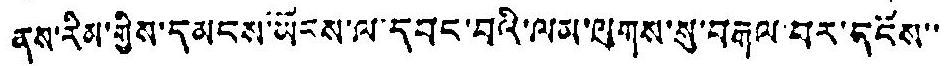ནས་རིམ་གྱིས་དམངས་ཡོངས་ལ་དབང་བའི་ལམ་ལུགས་སུ་བརྒལ་བར་དངོས་་
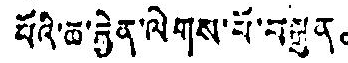པོའི་ཆ་རྐྱེན་ལེགས་པོ་བསྐུན。
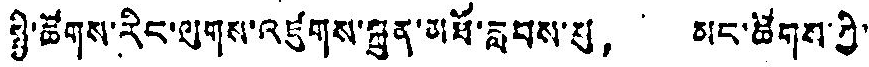སྤྱི་ཚོགས་རིང་ལུགས་འཛུགས་སྐྲུན་མཐོ་རླབས་སུ， མང་ཚོགས་ཀྱི་
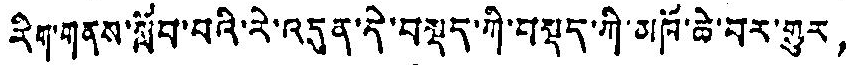རིག་གནས་སློབ་བའི་རེ་འདུན་དེ་བསྡད་ཀི་བསྡད་ཀྱི་མཁོ་ཆེ་བར་གྱུར，
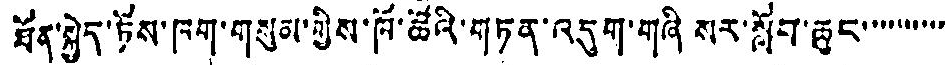ཐོན་སྐྱེད་ཏོས་ཁག་གསུམ་གྱིས་ཁོ་ཚོའི་གཏན་འདུག་གཞི སར་སློབ་ཆུང་་་་་་་་་་་
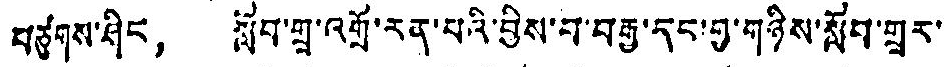བཙུགས་ཤིང， སློབ་གྲྭ་འགྲོ་རན་པའི་བྱིས་བ་བརྒྱ་དང་གྱ་གཉིས་སློབ་གྲྭར་
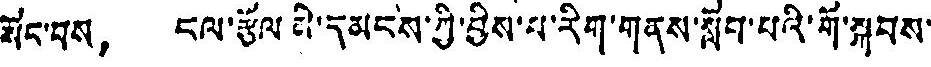སོང་བས， ངལ་རྩོལ མི་དམངས་ཀྱི་བྱིས་པ་རིག་གནས་སློབ་པའི་གོ་སྐབས་
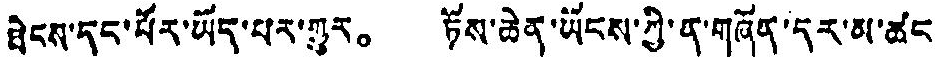ཐེངས་དང་པོར་ཡོད་པར་གྱུར。 ཏོས་ཆེན་ཡོངས་ཀྱི་ན་གཞོན་དར་མ་ཚང་
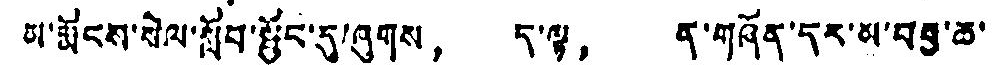ཨ་རྨོངས་སེལ་སློབ་སྦྱོང་དུ་ཞུགས， ད་ལྟ， ན་གཞོན་དར་མ་བརྒྱ་ཆ་
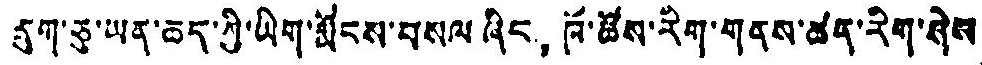དྲུག་ཅུ་ཡན་ཆད་ཀྱི་ཡིག་རྨོངས་བསལ ཞིང， ཁོ་ཚོས་རིག་གནས་ཚན་རིག་ཤེས་
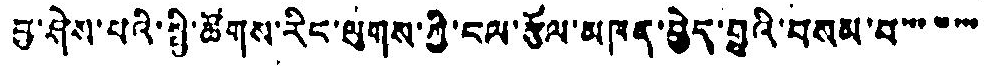བྱ་ཤེས་པའི་སྤྱི་ཚོགས་རིང་ལུགས་ཀྱི་ངལ་རྩོལ་མཁན་བྱེད་བྱའི་བསམ་པ་་་་་་་
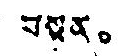བསྟན。
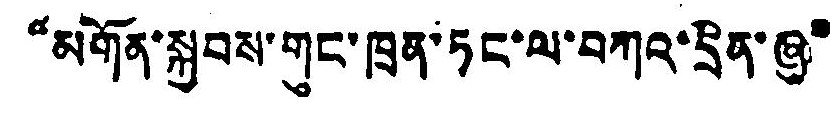“མགོན་སྐྱབས་གུང་ཁྲན་ཏང་ལ་བཀའ་དྲིན་ཞུ”
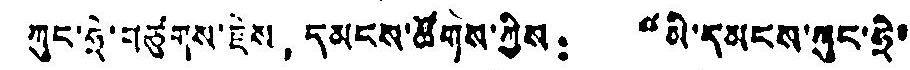ཀུང་ཧྲེ་བཙུགས་རྗེས，དམངས་ཚོགས་ཀྱིས： “མི་དམངས་ཀུང་ཧྲི་
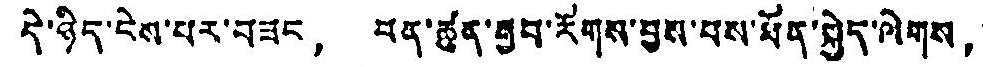དེ་ཉིད་ངེས་པར་བཟང， ཕན་ཚུན་རྒྱབ་རོགས་བྱས་པས་ཐོན་སྐྱེད་ལེགས，
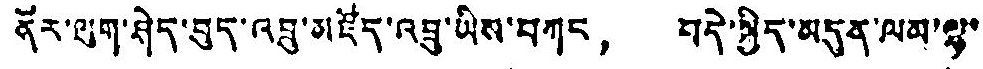ནོར་ལུག་ཤེད་བུད་འབྲུ་མཛོད་འབྲུ་ཡིས་བཀང， བདེ་སྐྱིད་མདུན་ལམ་ལྷ་
